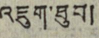འཇུག་ཐུབ།
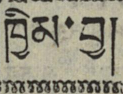ཁྱིམ་བྱ།
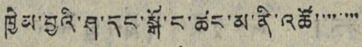ཁྱིམ་བྱའི་ཤ་དང་སྒོ་ང་ཚང་མ་ནི་འཚོ་་་་་་་་
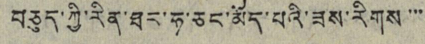བཅུད་ཀྱི་རིན་ཐང་ཧ་ཅང་མོད་པའི་ཟས་རིགས་་་
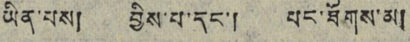ཡིན་པས། བྱིས་པ་དང་། པང་ཐོགས་མ།
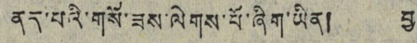ནད་པའི་གསོ་ཟས་ལེགས་པོ་ཞིག་ཡིན། བྱ་
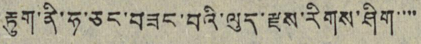རྟུག་ནི་ཧ་ཅང་བཟང་བའི་ལུད་རྫས་རིགས་ཤིག་་་་
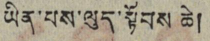ཡིན་པས་ལུད་སྟོབས ཆེ།
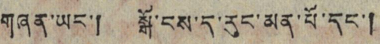གཞན་ཡང་། སྒོ་ངས་ད་རུང་མན་པོ་དང་།
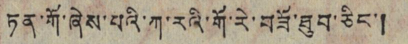ཏན་ཀོ་ཞེས་པའི་ཀ་རའི་གོ་རེ་བཟོ་ཐུབ་ཅིང་།
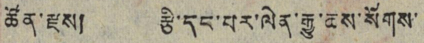ཚོན་རྫས། རྩི་དང་པར་ལེན་རྒྱུ་ཆས་སོགས་
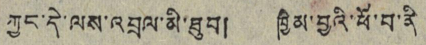ཀྱང་དེ་ལས་འབྲལ་མི་ཐུབ། ཁྱིམ་བྱའི་ཕོ་བ་ནི།
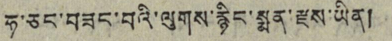ཧ་ཅང་བཟང་བའི་ལུགས་རྙིང་སྨན་རྫས་ཡིན།
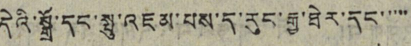དའི་སྒྲོ་དང་སྤུ་འཇམ་པས་ད་རང་རྒྱུ་ཐེར་དང་་་་་
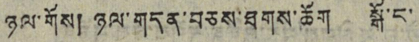ཉལ་གོས། ཉལ་གདན་བཅས་ཐུགས་ཆོག སྒོ་ང་
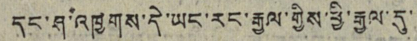དང་ཤ་འཁྱགས་དེ་ཡང་རང་རྒྱལ་གྱིས་ཕྱི་རྒྱལ་དུ་་
